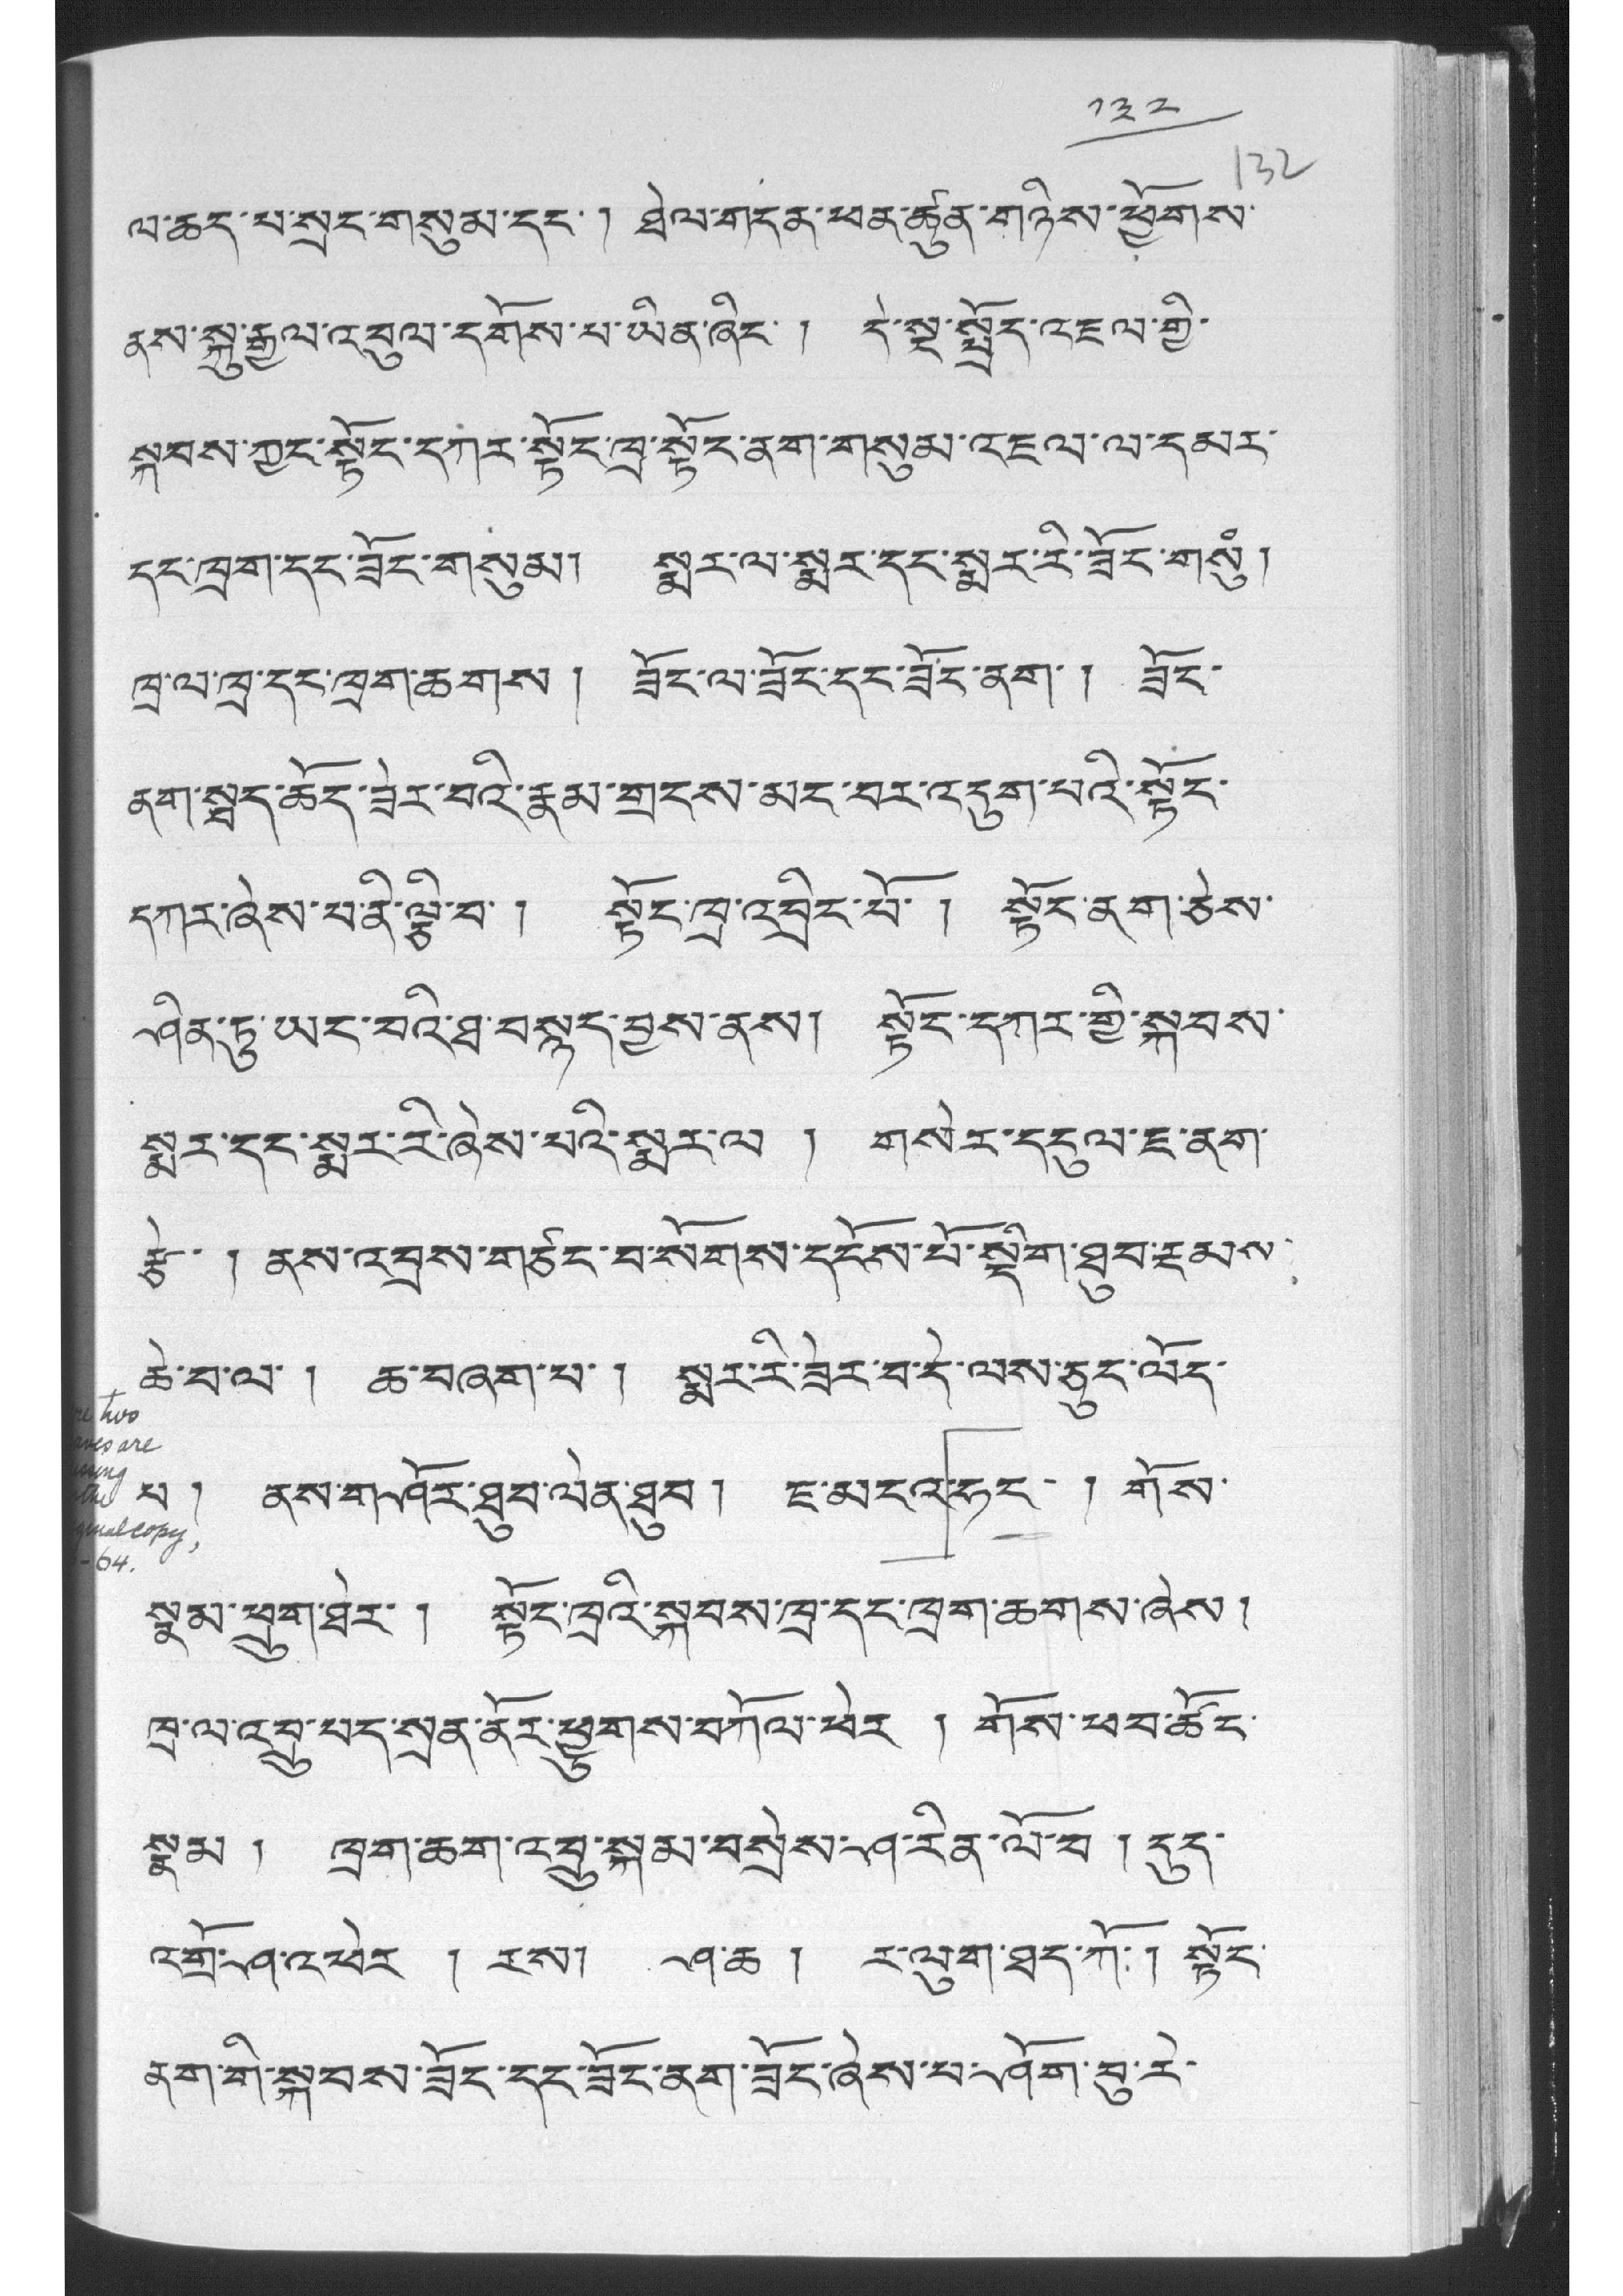༡༣༢
ལ་ཆད་པ་སྲང་གསུམ་དང་། ཐེལ་གདན་ཕན་ཚུན་གཉིས་ཕྱོགས་
ནས་སྐུ་རྒྱལ་འབུལ་དགོས་པ་ཡིན་ཞིང་། དེ་སྔ་སྤྲོད་འཇལ་གྱི་
སྐབས་ཀྱང་སྟོང་དཀར་སྟོང་ཁྲ་སྟོང་ནག་གསུམ་འཇལ་ལ་དམར་
དང་ཁྲག་དང་ཟོང་གསུམ། སྨར་ལ་སྨར་དང་སྨར་རི་ཟོང་གསུཾ་
ཁྲ་ལ་ཁྲ་དང་ཁྲག་ཆགས ། ཟོང་ལ་ཟོང་དང་ཟོང་ནག་ ། ཟོང་
ནག་སྦད་ཆོད་ཟེར་བའི་རྣམ་གྲངས་མང་བར་འདུག་པའི་སྟོང་
དཀར་ཞེས་པ་ནི་ལྕི་བ་ ། སྟོང་ཁྲ་འབྲིང་པོ་ ། སྟོང་ནག་ཅེས་
ཤིན་ཏུ་ཡང་བའི་ཐ་བསྙད་བྱས་ནས། སྟོང་དཀར་གྱི་སྐབས་
སྨར་དང་སྨར་རི་ཞེས་པའི་སྨར་ལ ། གསེར་དངུལ་ཇ་ནག་
རྩེ་ ། ནས་འབྲས་གཙང་བ་སོགས་དངོས་པོ་སྡིག་ཐུབ་རྔམས་
ཆེ་བ་ལ་ ། ཆ་བཞག་པ་ ། སྨར་རི་ཟེར་བ་དེ་ལས་ཅུང་ལོད་
པ ། ནས་གཤོར་ཐུབ་ལེན་ཐུབ། ཇ་མངའ་ཧང་ ། གོས་
སྣམ་ཕྲུག་ཐེར་ ། སྟོང་ཁྲའི་སྐབས་ཁྲ་དང་ཁྲག་ཆགས་ཞེས།
ཁྲ་ལ་འབྲུ་པད་སྲན་ནོར་ཕྱུགས་བཀོལ་ཕེར ། གོས་ཕབ་ཚོང་
སྣམ ། ཁྲག་ཆག་འབྲུ་སྐམ་བསྲེས་ཤ་རིན་ལོ་བ ། དུད་
འགྲོ་ཤ་འཕེར ། རས། ཤ་ཆ ། ར་ལུག་ཐད་ཀོ༴། སྟོང་
ནག་གི་སྐབས་ཟོང་དང་ཟོང་ནག་ཟོང་ཞེས་པ་ཤོག་བུ་རེ་
here two leaves are missing from the original copy, 63–64
